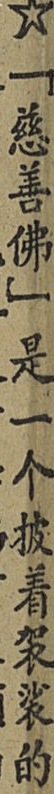☆「慈善佛」是一个披着袈裟的
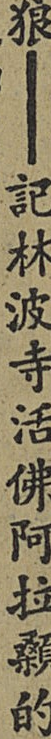狼——記林波寺活佛阿拉顙的
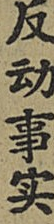反动事实
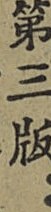第三版：
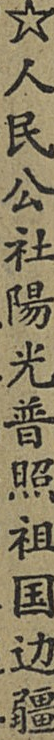☆人民公社陽光普照祖国边疆
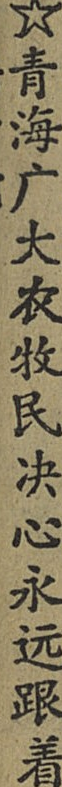☆青海广大农牧民决心永远跟着
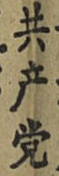共产党
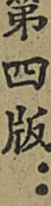第四版：
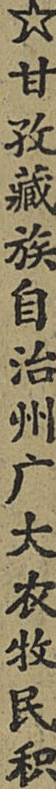☆甘孜藏族自治州广大农牧民积
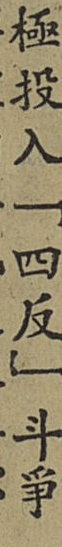極投入「四反」斗爭
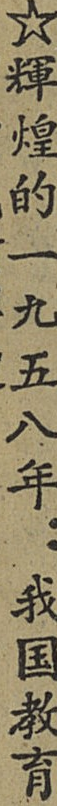☆輝煌的一九五八年：我国教育
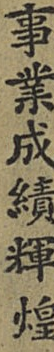事業成績輝煌
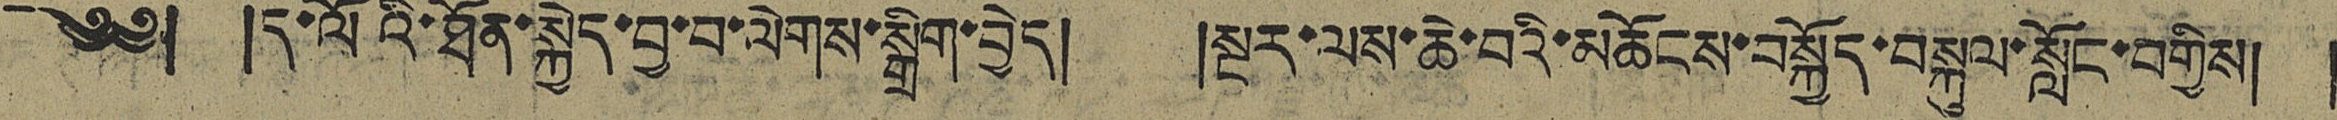༄༅། །ད་ལོའི་ཐོན་སྐྱེད་བྱ་བ་ལེགས་སྒྲིག་བྱེད། །སྔར་ལས་ཆེ་བའི་མཆོངས་བསྐྱོད་བསྐུལ་སློང་བགྱིས། །
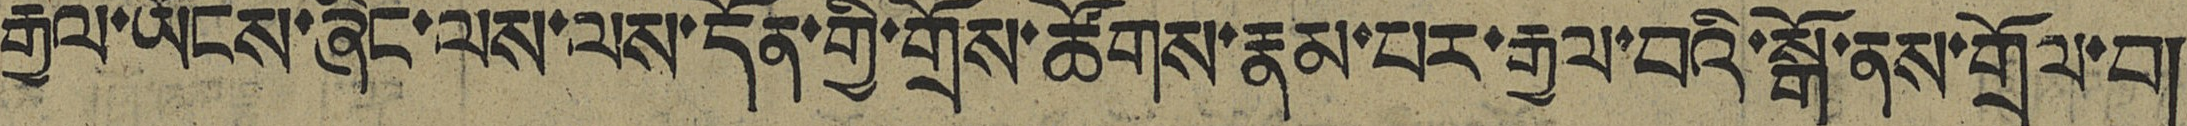རྒྱལ་ཡོངས་ཞིང་ལས་ལས་དོན་གྱི་གྲོས་ཚོགས་རྣམ་པར་རྒྱལ་བའི་སྒོ་ནས་གྲོལ་བ།
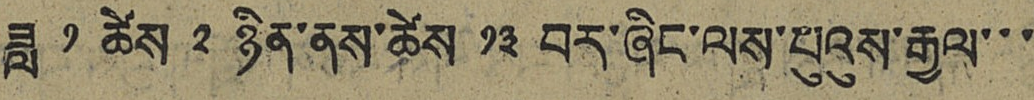ཟླ ༡ ཚེས ༢ ཉིན་ནས་ཚེས ༡༣ བར་ཞིང་ལས་པུའུས་རྒྱལ་་་
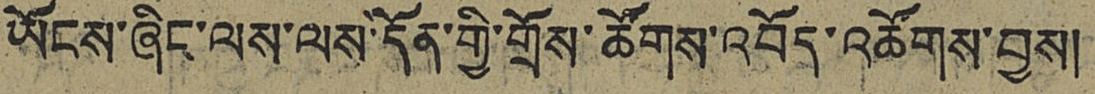ཡོངས་ཞིང་ལས་ལས་དོན་གྱི་གྲོས་ཚོགས་འབོད་འཚོགས་བྱས།
